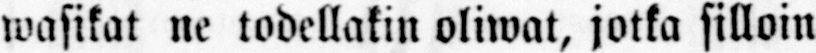wasikat ne todellakin oliwat, jotka silloin
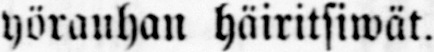yörauhan häiritsiwät.
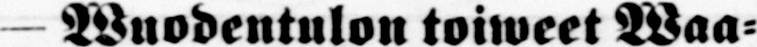- Wuodentulon toiweet Waa-
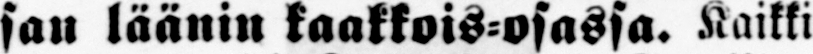san läänin kaakkois osassa. Kaikki
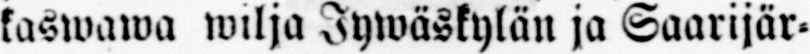kuswawa wilja Jywäskylän ja Saarijär-
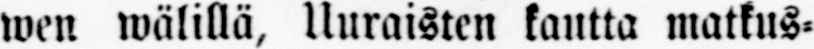wen wälillä, Uuraisten kautta matkus-
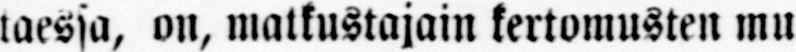taessa, on, matkustajain kertomusten mu
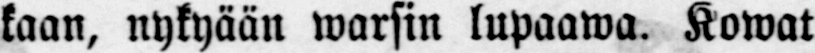kaan, nykyään warsin lupaawa. Kowat
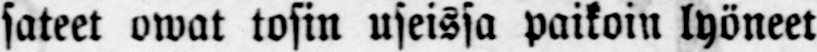sateet owat tosin useissa paikoin lyöneet
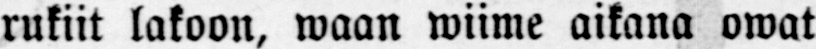rukiit lakoon, waan wiime aikana owat
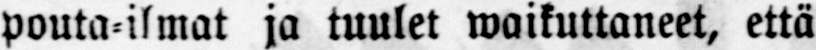pouta-ilmat ja tuulet waikuttaneet, että
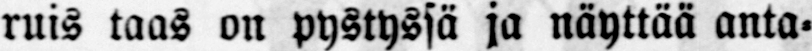ruis taas on pystyssä ja näyttää anta-
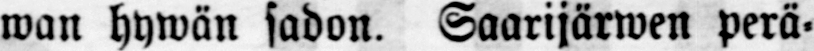wan hywän sadon. Saarijärwen perä-
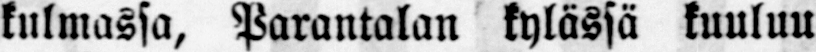kulmassa, Parantalan kylässä kuuluu
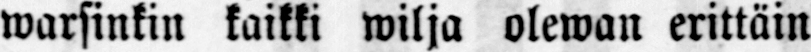warsinkin kaikki wilja olewan erittäin
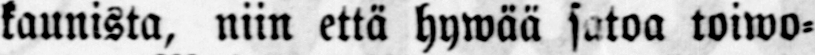kaunista, niin että hywää satoa toiwo-
